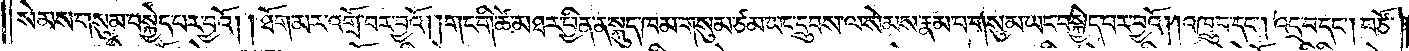སེམས་གསུམ་བསྐྱེད་པར་བྱའོ། །ཐོག་མར་འགྲོ་བར་བྱའོ། །གང་གི་ཚེ་མཐར་ཕྱིན་ན་སྐུད་ཁམ་གསུམ་ཙམ་ཡང་དྲུབས་ལ་སེམས་རྣམ་པ་གསུམ་ཡང་བསྐྱེད་པར་བྱའོ། །འཁྲུ་བ་དང༌། འདྲ་བ་དང༌། བཙོ་
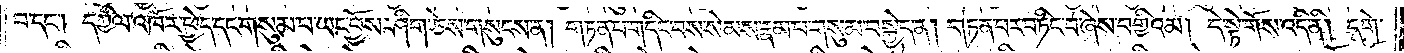བ་དང༌། དཀྱིལ་འཁོར་ཕྱེད་དང་གསུམ་པ་ཡང་བྱོས་ཤིག་ཅེས་གསུངས་ན། གཏན་པ་གདིང་བས་སེམས་རྣམ་པ་གསུམ་བསྐྱེད་ན། གཏན་པར་བཏིང་བ་ཞེས་བགྱིའམ། དེ་སྟེ་གོས་འདི་ནི། དགེ་
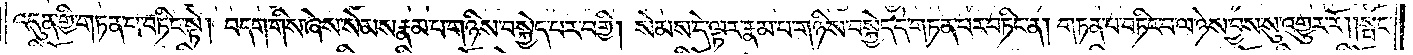འདུན་གྱི་གཏན་པ་བཏིང་སྟེ། བདག་གིས་ཞེས་སེམས་རྣམ་པ་གཉིས་བསྐྱེད་པར་བགྱི། སེམས་དེ་ལྟར་རྣམ་པ་གཉིས་བསྐྱེད་དེ་གཏན་པར་བཏིང་ན། གཏན་པ་བཏིང་བ་ལ་ཉེས་བྱས་སུ་འགྱུར་རོ། །སྤང་
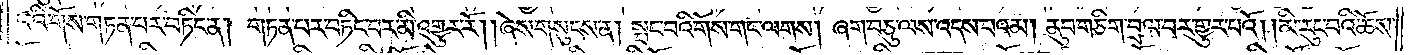པའི་གོས་གཏན་པར་བཏིང་ན། གཏན་པར་བཏིང་བར་མི་འགྱུར་རོ། །ཞེས་གསུངས་ན། སྤང་བའི་གོས་གང་ལགས། ཞག་བཅུ་ལས་འདས་པའམ། ནུབ་གཅིག་བྲལ་བར་གྱུར་པའོ། །མི་རུང་བའི་ཆོས་
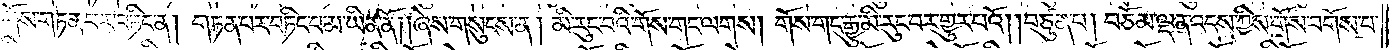གོས་གཏན་པར་བཏིང་ན། གཏན་པར་བཏིང་བ་མ་ཡིན་ནོ། །ཞེས་གསུངས་ན། མི་རུང་བའི་གོས་གང་ལགས། གོས་གང་རྒྱུ་མི་རུང་བར་གྱུར་པའོ། །བཙུན་པ། བཅོམ་ལྡན་འདས་ཀྱིས་གོས་བགོས་པ་
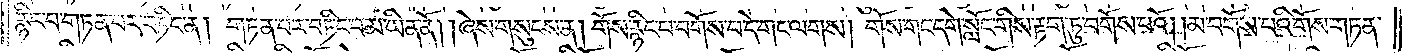རྙིང་པ་གཏན་པར་བཏིང་ན། གཏན་པར་བཏིང་བ་མ་ཡིན་ནོ། །ཞེས་གསུངས་ན། གོས་རྙིང་པ་བགོས་པ་དེ་གང་ལགས། གོས་གང་དགེ་སློང་གིས་རྟག་ཏུ་བགོས་པའོ། །མ་བགོས་པའི་གོས་གཏན་
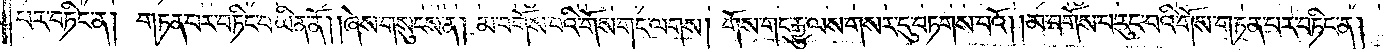པར་བཏིང་ན། གཏན་པར་བཏིང་བ་ཡིན་ནོ། །ཞེས་གསུངས་ན། མ་བགོས་པའི་གོས་གང་ལགས། གོས་གང་རྒྱུ་ལས་གསར་དུ་བཏགས་པའོ། །མ་བགོས་པ་རུང་བའི་གོས་གཏན་པར་བཏིང་ན།
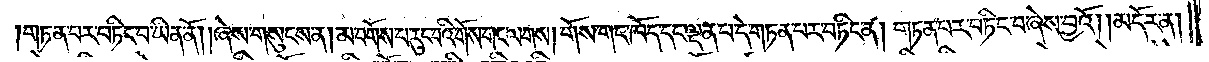གཏན་པར་བཏིང་བ་ཡིན་ནོ། །ཞེས་གསུངས་ན། མ་བགོས་པ་རུང་བའི་གོས་གང་ལགས། གོས་གང་ཁོད་དང་ལྡན་པ་དེ་གཏན་པར་བཏིང་ན། གཏན་པར་བཏིང་བ་ཞེས་བྱའོ། །མདོར་ན།
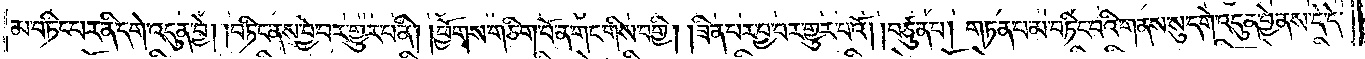མ་བཏིང་བར་ནི་དགེ་འདུན་བྱེ། །བཏིང་ནས་བྱེ་བར་གྱུར་པ་ནི། །ཕྱོགས་གཅིག་པོ་ན་གང་གིས་བགྱི། །ཟིན་པར་བྱ་བར་གྱུར་པའོ། །བཙུན་པ། གཏན་པ་མ་བཏིང་བའི་གནས་སུ་དགེ་འདུན་བྱེ་ནས་དེ་དེ་
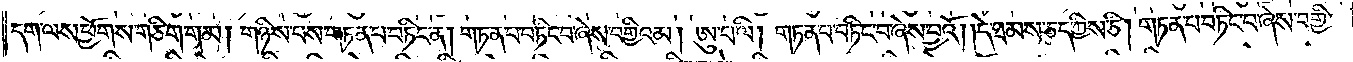དག་ལས་ཕྱོགས་གཅིག་གམ། གཉིས་པས་གཏན་པ་བཏིང་ན། གཏན་པ་བཏིང་བ་ཞེས་བགྱིའམ། ཨུ་པ་ལི། གཏན་པ་བཏིང་བ་ཞེས་བྱའོ། །དེ་ཐམས་ཅད་ཀྱིས་ཅི། གཏན་པ་བཏིང་བ་ཞེས་བགྱི་
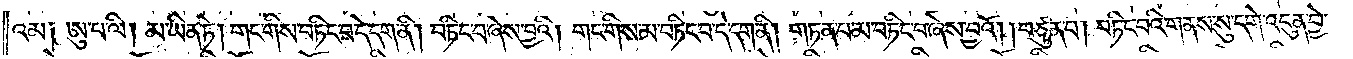འམ༑ ཨུ་པ་ལི། མ་ཡིན་ཏེ། གང་གིས་བཏིང་བ་དེ་དག་ནི། བཏིང་བ་ཞེས་བྱའི། གང་གིས་མ་བཏིང་བ་དེ་དག་ནི། གཏན་པ་མ་བཏིང་བ་ཞེས་བྱའོ། །བཙུན་པ། བཏིང་བའི་གནས་སུ་དགེ་འདུན་བྱེ་
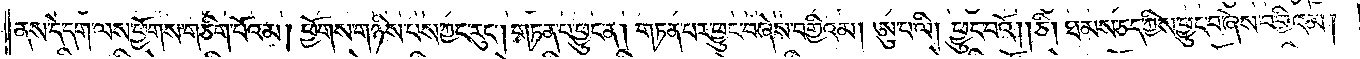ནས་དེ་དག་ལས་ཕྱོགས་གཅིག་པོའམ། ཕྱོགས་གཉིས་པས་ཀྱང་རུང༌། གཏན་པ་ཕྱུང་ན། གཏན་པར་ཕྱུང་བ་ཞེས་བགྱིའམ། ཨུ་པ་ལི། ཕྱུང་བའོ། །ཅི། ཐམས་ཅད་ཀྱིས་ཕྱུང་བ་ཞེས་བགྱིའམ།
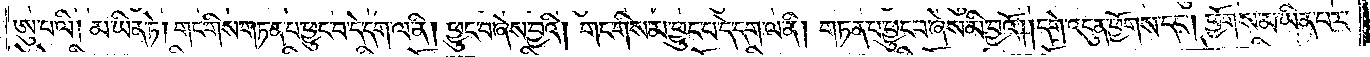ཨུ་པ་ལི། མ་ཡིན་ཏེ། གང་གིས་གཏན་པ་ཕྱུང་བ་དེ་དག་ལ་ནི། ཕྱུང་བ་ཞེས་བྱའི། གང་གིས་མ་ཕྱུང་བ་དེ་དག་ལ་ནི། གཏན་པ་ཕྱུང་བ་ཞེས་མི་བྱའོ། །དགེ་འདུན་ཕྱོགས་དང༌། ཕྱོགས་མ་ཡིན་པར་
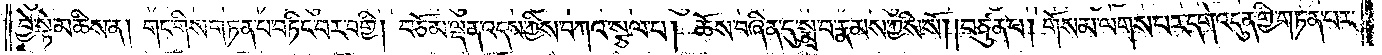བྱེ་སྟེ་མཆིས་ན། གང་གིས་གཏན་པ་བཏིང་བར་བགྱི། བཅོམ་ལྡན་འདས་ཀྱིས་བཀའ་སྩལ་པ། ཆོས་བཞིན་དུ་སྨྲ་བ་རྣམས་ཀྱིས་སོ། །བཙུན་པ། གོས་མ་ལགས་པར་དགེ་འདུན་གྱི་གཏན་པར་
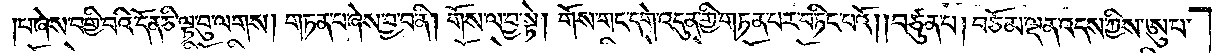པ་ཞེས་བགྱི་བའི་དོན་ཅི་ལྟ་བུ་ལགས། གཏན་པ་ཞེས་བྱ་བ་ནི། གོས་ལ་བྱ་སྟེ། གོས་གང་དགེ་འདུན་གྱི་གཏན་པར་བཏིང་བའོ། །བཙུན་པ། བཅོམ་ལྡན་འདས་ཀྱིས་ཨུ་པ་
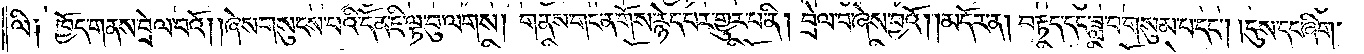ལི༑ ཁྱོད་གནས་བྲེལ་བའོ། །ཞེས་གསུངས་པའི་དོན་ཇི་ལྟ་བུ་ལགས། གནས་གང་ན་གོས་རྙེད་པར་གྱུར་པ་ནི། བྲེལ་བ་ཞེས་བྱའོ། །མདོར་ན། བརྟད་དང་ཟླ་བ་གསུམ་པ་དང༌། དུས་དང་ཞིག་
